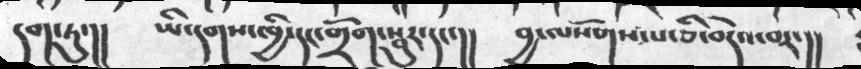དག་ཏུ་།།  ཡི་དགས་ཁྱི་དང་གྲོག་སྦུར་དང་།།  བྱ་ལསོགས་པ་ཅི་བདེའ་བར་།།
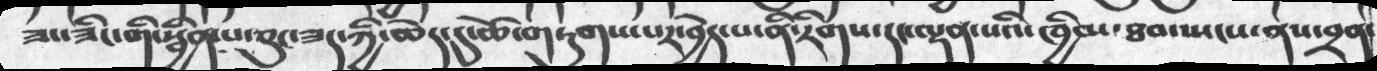ཟང་ཟིང་གི་སྦྱིན་པ་ཅུང་ཟད་ཀྱི་ཆེད་དུ་ཚེ་གཏུགས་པར་བྱེད་པ་ནི་རིགས་དང་ལྡན་པའི་ཁྱིམ་ཐབ་སྤངས་ནས་བྲན་
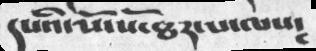དཔའི་སོ་སོ་ཐར་པ་ལས༴
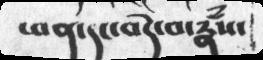ཕན་དང་བདེ་བ་རྣཾས་
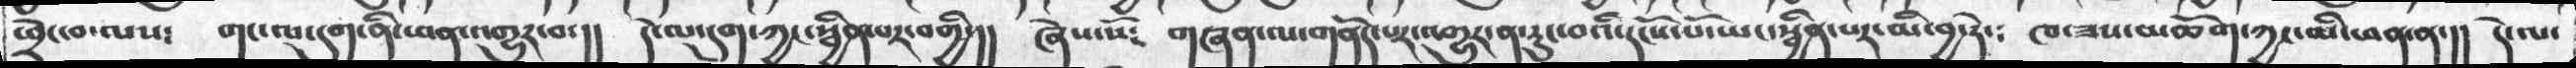ཕྲེང་བ་ལས༴ གང་ལ་དུག་ནི་ཕན་འགྱུར་བ་།། དེ་ལ་དུག་ཀྱང་སྦྱིན་པར་བགྱི།། ཞེས་སོ༴ གཞན་ལ་གནོད་པར་འགྱུར་ན་རུང་བའི་དངོས་པོ་ཡང་སྦྱིན་པར་མི་བྱ་ཏེ་༴ ཁ་ཟས་མཆོག་ཀྱང་མི་ཕན་ན་།། དེ་ལ་
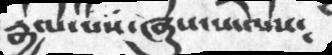རྒྱལ་པས་ཞུས་པ་ལས༴
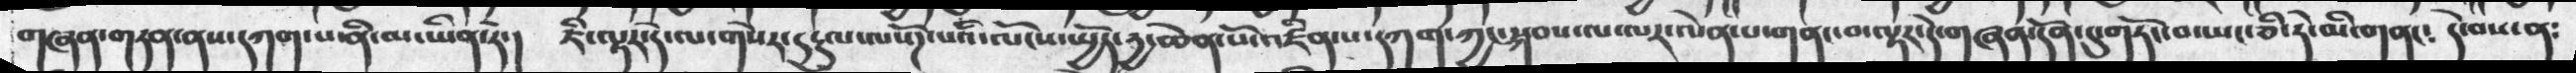གཞན་གཏན་ནས་དཀག་པ་ནི་མ་ཡིན་ཏེ་། ཇི་ལྟར་དེ་ལ་གསེར་དངུལ་ལསོཌ་པའི་ལོངས་སྤྱོད་དྱ་ཆེན་པོ་འཛིན་པ་དཀག་ཀྱང་སྐབས་ལ་ལར་ལེན་པ་གནང་བ་ལྟར་དེ་གཞན་དོན་དུ་གཏོང་བ་ཡང་ཅི་དེ་མི་གནང༴ དེ་བས་ན༴
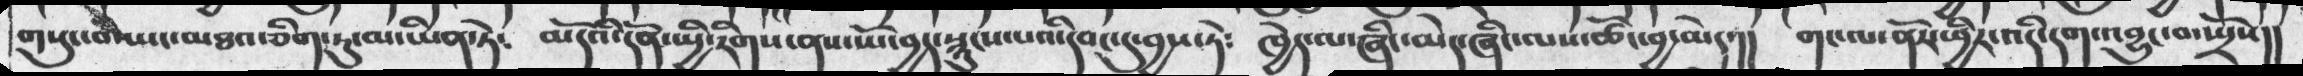གསུང་བ་ཡང་མཐའ་ཅིག་ཏུ་མ་ཡིན་ཏེ༴  མདོའི་དོན་སྤྱི་རིགས་ནས་ཡོ་བྱད་སྙུངས་པའི་དབང་དུ་བྱས་ཏེ༴  ཁྱེད་ལ་ཞིང་མེད་ཞིང་ལས་ཚོང་བྱ་མེད་།།  གང་ལ་ནོར་ཕྱིར་འདི་དག་འབྱུང་བ་སྤྲོས།།
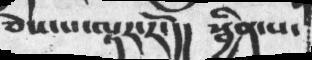ཅེས་པ་ལྟར་རོ་།། སྦྱིན་པ་
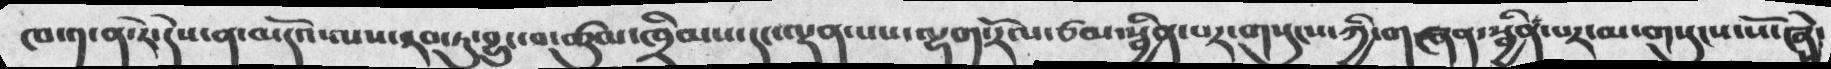ཁ་༡་ན་རེ་དེས་ན་མདོའ་ལས་རབ་ཏུ་བྱུང་བ་ཚུལ་ཁྲིམས་དང་ལྡན་པས་ལྷག་རོལ་ཙམ་སྦྱིན་པར་གསུངས་ཀྱི་གཞན་སྦྱིན་པར་མ་གསུངས་སོ་ཞེ་
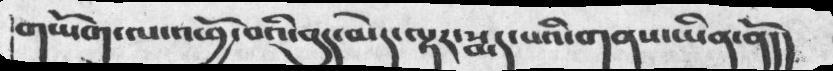གཡོག་ལ་འཕྱོ་བའི་བུད་མེད་ལྟར་སྨད་པའི་གནས་ཡིན་ནོ།།
